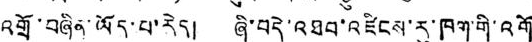འགྲོ་བཞིན་ཡོད་པ་རེད། ཞི་བདེ་འཐབ་འཛིངས་རུ་ཁག་གི་འགོ
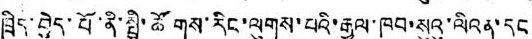ཁྲིད་བྱེད་པོ་ནི་སྤྱི་ཚོགས་རིང་ལུགས་པའི་རྒྱལ་ཁབ་སུའུ་ལིའན་དང་
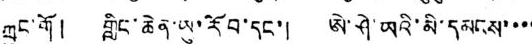ཀྲུང་གོ། གླིང་ཆེན་ཡུ་རོབ་དང་། ཨེ་ཤེ་ཡའི་མི་དམངས་་་་
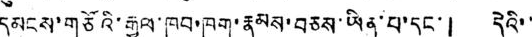དམངས་གཙོའི་རྒྱལ་ཁབ་ཁག་རྣམས་བཅས་ཡིན་པ་དང་། དེའི་་
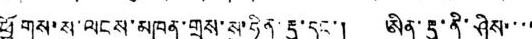ཕྱོགས་སུ་ལངས་མཁན་གྲས་སུ་ཧིན་རྡུ་དང་། ཡིན་རྡུ་ནི་ཤིས་་་་
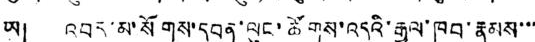ཡ། འབར་མ་སོགས་དབན་ལུང་ཚོགས་འདུའི་རྒྱལ་ཁབ་རྣམས་་་
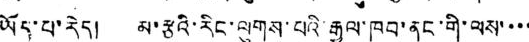ཡོད་པ་རེད། མ་རྩའི་རིང་ལུགས་པའི་རྒྱལ་ཁབ་ནང་གི་ལས་་་་
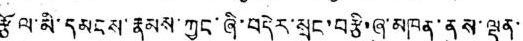རྩོལ་མི་དམངས་རྣམས་ཀྱང་ཞི་བདེར་སྲུང་བརྩི་ཞུ་མཁན་ནུས་ལྡན་་
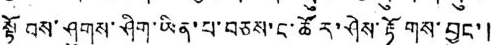སྟོབས་ཤུགས་ཤིག་ཡིན་པ་བཅས་ང་ཚོར་ཤེས་རྟོགས་བྱུང་།
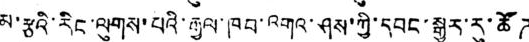མ་རྩའི་རིང་ལུགས་པའི་རྒྱལ་ཁབ་འགའ་ཤས་ཀྱི་དབང་སྒྱུར་རུ་ཚོཊ
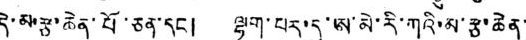དེ་མ་རྩ་ཆེན་པོ་ཅན་དང། ལྷག་པར་དུ་ཨ་མེ་རི་ཀའི་མ་རྩ་ཆེན་
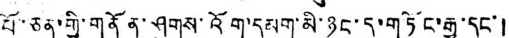པོ་ཅན་གྱི་གནོན་ཤུགས་འོག་དམག་མི་ཉུང་དུ་གཏོང་རྒྱུ་དང་།
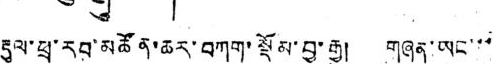རྡུལ་ཕྲ་རབ་མཚོན་ཆར་བཀག་སྡོམ་བྱ་རྒྱུ། གཞན་ཡང་་་
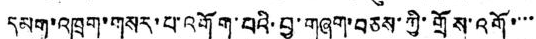དམག་འཁྲུག་གསར་པ་འགོག་བའི་བྱ་གཞག་བཅས་ཀྱི་གྲོས་འགོ་་་་
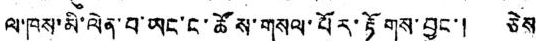ལ་ཁས་མི་ལེན་བ་ཡང་ང་ཚོས་གསལ་པོར་རྟོགས་བྱུང་། ཅེས
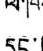དང་།
